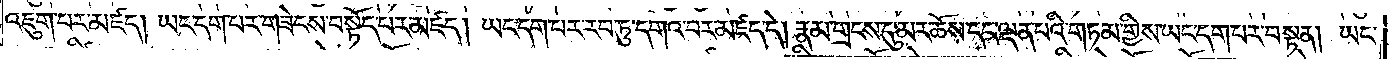འཇུག་པར་མཛད། ཡང་དག་པར་གཟེངས་བསྟོད་པར་མཛད། ཡང་དག་པར་རབ་ཏུ་དགའ་བར་མཛད་དེ། རྣམ་གྲངས་དུ་མར་ཆོས་དང་ལྡན་པའི་གཏམ་གྱིས་ཡང་དག་པར་བསྟན། ཡང་
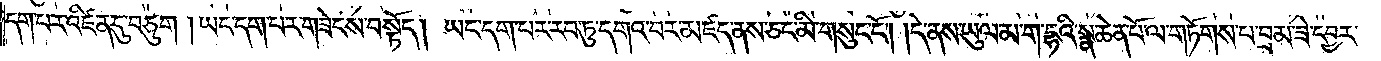དག་པར་འཛིན་དུ་བཅུག །ཡང་དག་པར་གཟེངས་བསྟོད། ཡང་དག་པར་རབ་ཏུ་དགའ་བར་མཛད་ནས་ཅང་མི་གསུང་ངོ༌། །དེ་ནས་ཡུལ་མ་ག་དྷའི་སྣ་ཆེན་པོ་ལ་གཏོགས་པ་བྲམ་ཟེ་དབྱར་
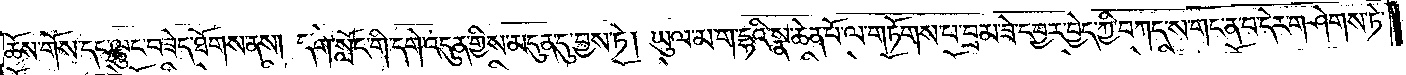ཆོས་གོས་དང་ལྷུང་བཟེད་ཐོགས་ནས། དགེ་སློང་གི་དགེ་འདུན་གྱིས་མདུན་དུ་བྱས་ཏེ། ཡུལ་མ་ག་དྷའི་སྣ་ཆེན་པོ་ལ་གཏོགས་པ་བྲམ་ཟེ་དབྱར་བྱེད་ཀྱི་བཀད་ས་གང་ན་བ་དེར་གཤེགས་ཏེ་
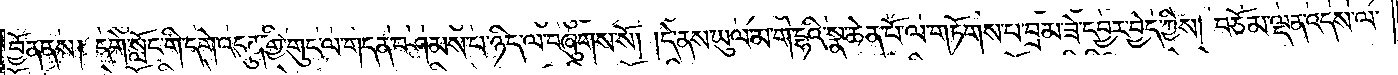བྱོན་ནས། དགེ་སློང་གི་དགེ་འདུན་གྱི་གུང་ལ་གདན་བཤམས་པ་ཉིད་ལ་བཞུགས་སོ། །དེ་ནས་ཡུལ་མ་ག་དྷའི་སྣ་ཆེན་པོ་ལ་གཏོགས་པ་བྲམ་ཟེ་དབྱར་བྱེད་ཀྱིས། བཅོམ་ལྡན་འདས་ལ་
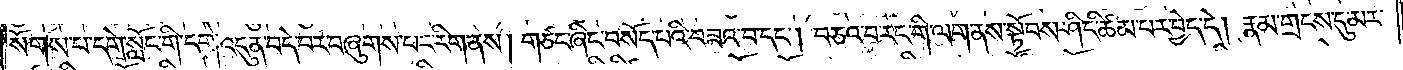སོགས་པ་དགེ་སློང་གི་དགེ་འདུན་བདེ་བར་བཞུགས་པར་རིག་ནས། གཙང་ཞིང་བསོད་པའི་བཟའ་བ་དང༌། བཅའ་བ་རང་གི་ལག་ནས་སྟོབས་ཤིང་ཚིམ་པར་བྱེད་དེ། རྣམ་གྲངས་དུ་མར་
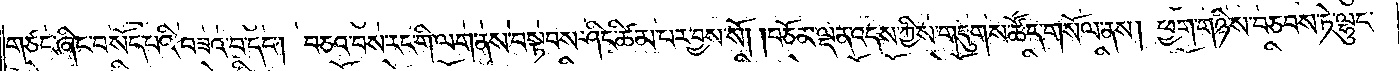གཙང་ཞིང་བསོད་པའི་བཟའ་བ་དང༌། བཅའ་བས་རང་གི་ལག་ནས་བསྟབས་ཤིང་ཚིམ་པར་བྱས་སོ། །བཅོམ་ལྡན་འདས་ཀྱིས་གདུགས་ཚོད་གསོལ་ནས། ཕྱག་གཉིས་བཅབས་ཏེ་ལྷུང་
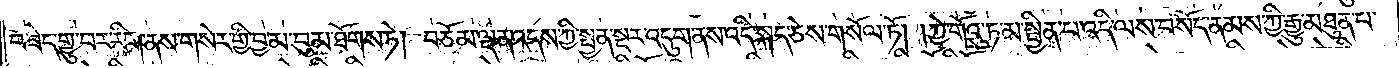བཟེད་གྱུ་བར་རིག་ནས་གསེར་གྱི་བྱ་མ་བུམ་ཐོགས་ཏེ། བཅོམ་ལྡན་འདས་ཀྱི་སྤྱན་སྔར་འདུག་ནས་འདི་སྐད་ཅེས་གསོལ་ཏོ། །ཀྱེ་གོའུ་ཏ་མ་སྦྱིན་པ་འདི་ལས་བསོད་ནམས་ཀྱི་རྒྱུ་མཐུན་པ་
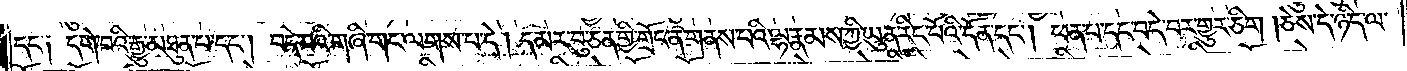དང་༑ དགེ་བའི་རྒྱུ་མཐུན་པ་དང༌། བདེ་བའི་གཞི་གང་ལགས་པ་དེ། དམར་བུ་ཅན་གྱི་གྲོང་ན་གནས་པའི་ལྷ་རྣམས་ཀྱི་ཡུན་རིང་པོའི་དོན་དང༌། ཕན་པ་དང་བདེ་བར་གྱུར་ཅིག །ཅེས་དེ་ཉིད་ལ་
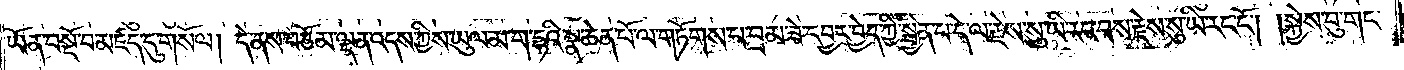ཡོན་བསྔོ་བ་མཛད་དུ་གསོལ། དེ་ནས་བཅོམ་ལྡན་འདས་ཀྱིས་ཡུལ་མ་ག་དྷའི་སྣ་ཆེན་པོ་ལ་གཏོགས་པ་བྲམ་ཟེ་དབྱར་བྱེད་ཀྱི་སྦྱིན་པ་དེ་ལ་རྗེས་སུ་ཡི་རང་བས་རྗེས་སུ་ཡི་རང་ངོ༌། །སྐྱེས་བུ་གང་
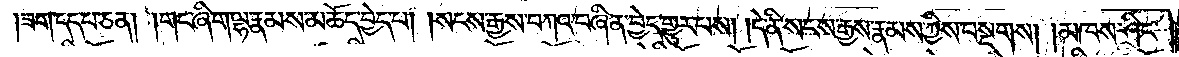ཟག་དད་པ་ཅན། །གང་ཞིག་ལྷ་རྣམས་མཆོད་བྱེད་པ། །སངས་རྒྱས་བཀའ་བཞིན་བྱེད་གྱུར་པས། །དེ་ནི་སངས་རྒྱས་རྣམས་ཀྱིས་བསྔགས། །མཁས་ཤིང་
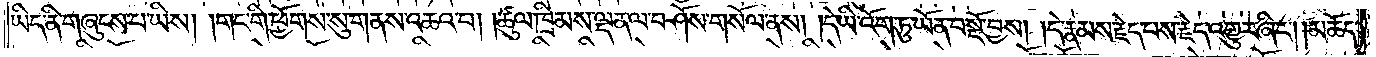ཡིད་ནི་གཞུངས་པ་ཡིས། །གང་གི་ཕྱོགས་སུ་གནས་འཆའ་བ། །ཚུལ་ཁྲིམས་ལྡན་ལ་བཤོས་གསོལ་ནས། །དེ་ཡི་འོག་ཏུ་ཡོན་བསྔོ་བྱས། །དེ་རྣམས་རྗེད་པས་རྗེད་འགྱུར་ཞིང༌། །མཆོད་
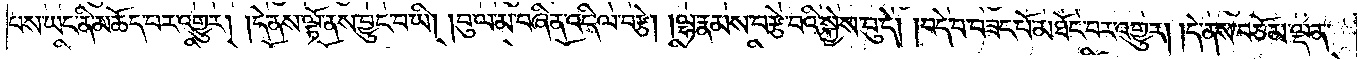པས་ཡང་ནི་མཆོད་པར་འགྱུར། །དེ་ནས་ལྟོ་ནས་བྱུང་བ་ཡི། །བུ་ལ་མ་བཞིན་འདི་ལ་བརྩེ། །ལྷ་རྣམས་བརྩེ་བའི་སྐྱེས་བུ་དེ། །བདེ་བ་བཟང་པོ་མཐོང་བར་འགྱུར། །དེ་ནས་བཅོམ་ལྡན་
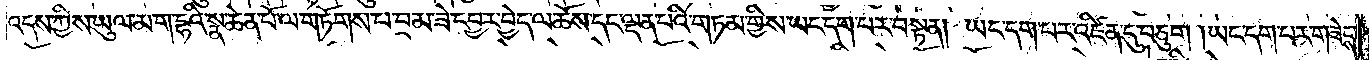འདས་ཀྱིས་ཡུལ་མ་ག་དྷའི་སྣ་ཆེན་པོ་ལ་གཏོགས་པ་བྲམ་ཟེ་དབྱར་བྱེད་ལ་ཆོས་དང་ལྡན་པའི་གཏམ་གྱིས་ཡང་དག་པར་བསྟན། ཡང་དག་པར་འཛིན་དུ་བཅུག །ཡང་དག་པར་གཟེངས་
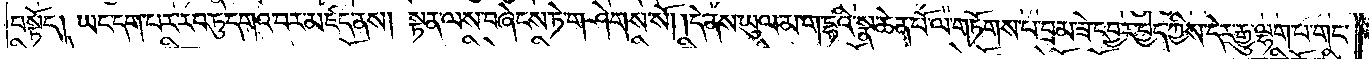བསྟོད། ཡང་དག་པར་རབ་ཏུ་དགའ་བར་མཛད་ནས། སྟན་ལས་བཞེངས་ཏེ་གཤེགས་སོ། །དེ་ནས་ཡུལ་མ་ག་དྷའི་སྣ་ཆེན་པོ་ལ་གཏོགས་པ་བྲམ་ཟེ་དབྱར་བྱེད་ཀྱིས་དེར་རྒྱུ་ལྷག་པ་གང་
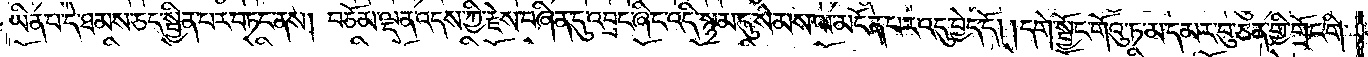ཡིན་པ་དེ་ཐམས་ཅད་སྦྱིན་པར་བཏང་ནས། བཅོམ་ལྡན་འདས་ཀྱི་རྗེས་བཞིན་དུ་འབྲང་ཞིང་འདི་སྙམ་དུ་སེམས་ལ་མངོན་པར་འདུ་བྱེད་དོ། །དགེ་སྦྱོང་གོའུ་ཏ་མ་དམར་བུ་ཅན་གྱི་གྲོང་གི་
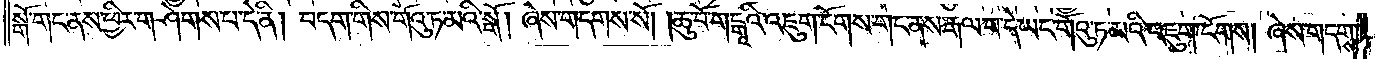སྒོ་གང་ནས་ཕྱིར་གཤེགས་པ་དེ་ནི། བདག་གིས་གོའུ་ཏ་མའི་སྒོ། ཞེས་གདགས་སོ། །ཆུ་བོ་གངྒཱའི་འཇུག་ངོགས་གང་ནས་རྒལ་བ་དེ་ཡང་གོའུ་ཏ་མའི་འཇུག་ངོགས། ཞེས་གདགས་
